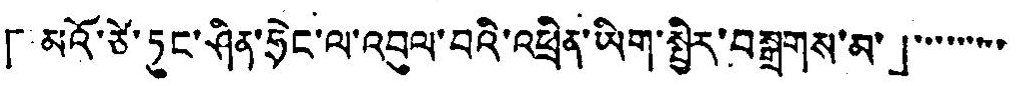「མའོ་ཙེ་ཏུང་ཤིན་ཧྲེང་ལ་འབུལ་བའི་འཕྲིན་ཡིག་སྤྱིར་བསྒྲགས་མ་」་་་་་་་་་
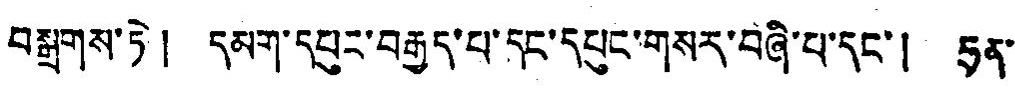བསྒྲགས་ཏེ། དམག་དཔུང་བརྒྱད་པ་དང་དཔུང་གསར་བཞི་པ་དང་། ཧྲན་
